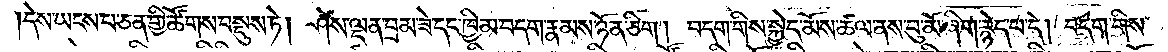།དེས་ཡངས་པ་ཅན་གྱི་ཚོགས་བསྡུས་ཏེ། ཤེས་ལྡན་བྲམ་ཟེ་དང་ཁྱིམ་བདག་རྣམས་ཉོན་ཅིག། བདག་གིས་སྐྱེད་མོས་ཚལ་ནས་བུ་མོ་ཞིག་རྙེད་པ་དེ། བདག་གིས་
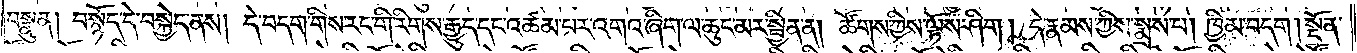བསྣུན། བསྙོད་དེ་བསྐྱེད་ནས། དེ་བདག་གིས་རང་གི་རིགས་རྒྱུད་དང་འཚམ་པར་འགའ་ཞིག་ལ་ཆུང་མར་སྦྱིན་ན། ཚོགས་ཀྱིས་ལྟོས་ཤིག། དེ་རྣམས་ཀྱིས་སྨྲས་པ། ཁྱིམ་བདག། སྔོན་
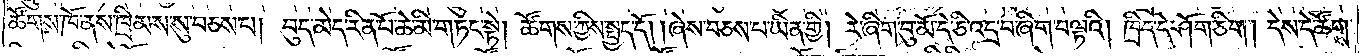ཚོགས་ཁོ་ནས་ཁྲིམས་སུ་བཅས་པ། བུད་མེད་རིན་པོ་ཆེ་མི་གཏང་སྟེ། ཚོགས་ཀྱིས་སྤྱད་དོ། །ཞེས་བཅས་པ་ཡིན་གྱི། རེ་ཞིག་བུ་མོ་དེ་ཅི་འདྲ་བ་ཞིག་བལྟའི། ཁྲིད་དེ་ཤོག་ཅིག། དེས་དེ་ཚོགས་
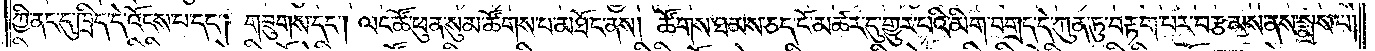ཀྱི་ནང་དུ་ཁྲིད་དེ་འོངས་པ་དང༌། གཟུགས་དང༌། ལང་ཚོ་ཕུན་སུམ་ཚོགས་པ་མཐོང་ནས། ཚོགས་ཐམས་ཅད་ངོ་མཚར་དུ་གྱུར་པའི་མིག་བགྲད་དེ་ཀུན་ཏུ་བརྟག་པར་བརྩམས་ནས་སྨྲས་པ།
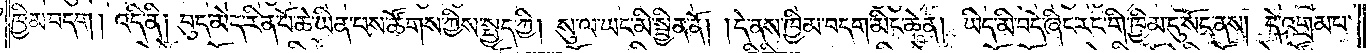ཁྱིམ་བདག། འདི་ནི། བུད་མེད་རིན་པོ་ཆེ་ཡིན་པས་ཚོགས་ཀྱིས་སྤྱད་ཀྱི། སུ་ལ་ཡང་མི་སྦྱིན་ནོ། །དེ་ནས་ཁྱིམ་བདག་མིང་ཆེན། ཡིད་མི་བདེ་ཞིང་རང་གི་ཁྱིམ་དུ་སོང་ནས། དེ་འགྲམ་པ་
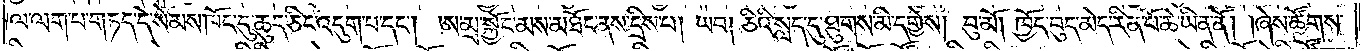ལ་ལག་པ་གཏད་དེ་སེམས་ཁོང་དུ་ཆུད་ཅིང་འདུག་པ་དང༌། ཨ་མྲ་སྐྱོང་མས་མཐོང་ནས་དྲིས་པ། ཡབ། ཅིའི་སླད་དུ་ཐུགས་མི་དགྱེས། བུ་མོ། ཁྱོད་བུད་མེད་རིན་པོ་ཆེ་ཡིན་ནོ། །ཞེས་ཚོགས་
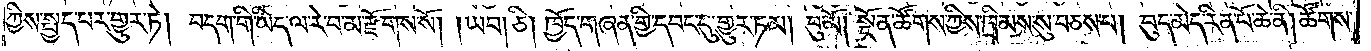ཀྱིས་སྤྱད་པར་གྱུར་ཏེ། བདག་གི་ཡིད་ལ་རེ་བ་མ་རྫོགས་སོ། །ཡབ། ཅི། ཁྱོད་གཞན་གྱི་དབང་དུ་གྱུར་ཏམ། བུ་མོ། སྔོན་ཚོགས་ཀྱིས་ཁྲིམས་སུ་བཅས་པ། བུད་མེད་རིན་པོ་ཆེ་ནི། ཚོགས་
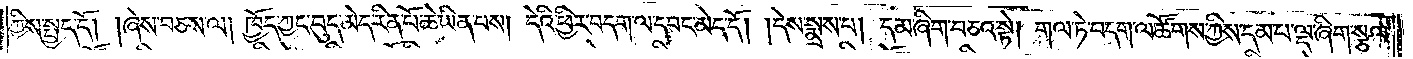ཀྱིས་སྤྱད་དོ། །ཞེས་བཅས་ལ། ཁྱོད་ཀྱང་བུད་མེད་རིན་པོ་ཆེ་ཡིན་པས། དེའི་ཕྱིར་བདག་ལ་དབང་མེད་དོ། །དེས་སྨྲས་པ། དམ་ཞིག་བཅའ་སྟེ། གལ་ཏེ་བདག་ལ་ཚོགས་ཀྱིས་དམ་པ་ལྔ་ཞིག་སྩལ་
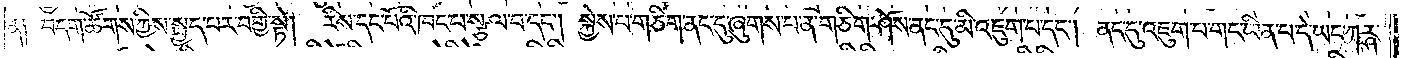ན༑ བདག་ཚོགས་ཀྱིས་སྤྱད་པར་བགྱི་སྟེ། རིས་དང་པོའི་ཁང་པ་སྩལ་བ་དང༌། སྐྱེས་པ་གཅིག་ནང་དུ་ཞུགས་པ་ན་གཅིག་ཤོས་ནང་དུ་མི་འཇུག་པ་དང༌། ནང་དུ་འཇུག་པ་གང་ཡིན་པ་དེ་ཡང་ཀརྴ་
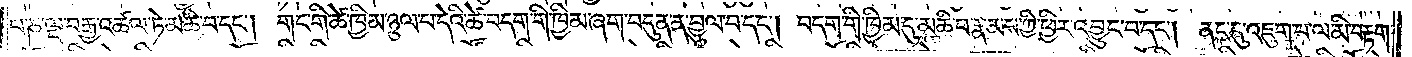པ་ཎ་ལྔ་བརྒྱ་འཚལ་ཏེ་མཆི་བ་དང༌། གང་གི་ཚེ་ཁྱིམ་ཉུལ་བ་དེའི་ཚེ་བདག་གི་ཁྱིམ་ཞག་བདུན་ན་བྱུལ་བ་དང༌། བདག་གི་ཁྱིམ་དུ་མཆི་བ་རྣམས་ཀྱི་ཕྱིར་འབྱུང་བ་དང༌། ནང་དུ་འཇུག་པ་ལ་མི་བརྟག་
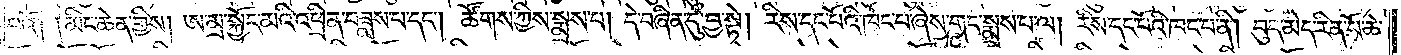པའོ། །མིང་ཆེན་གྱིས། ཨ་མྲ་སྐྱོང་མའི་འཕྲིན་བཟླས་པ་དང༌། ཚོགས་ཀྱིས་སྨྲས་པ། དེ་བཞིན་དུ་བྱ་སྟེ། རིས་དང་པོའི་ཁང་པ་ཞེས་གང་སྨྲས་པ་ལ། རིས་དང་པོའི་ཁང་པ་ནི། བུད་མེད་རིན་པོ་ཆེ་
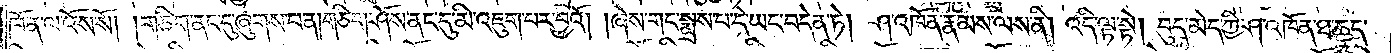ཁོ་ན་ལ་འོས་སོ། །གཅིག་ནང་དུ་ཞུགས་པ་ན། གཅིག་ཤོས་ནང་དུ་མི་འཇུག་པར་བྱའོ། །ཞེས་གང་སྨྲས་པ་དེ་ཡང་བདེན་ཏེ། ཤ་འཁོན་རྣམས་ལས་ནི། འདི་ལྟ་སྟེ། བུད་མེད་ཀྱི་ཤ་འཁོན་ཐ་ཆད་
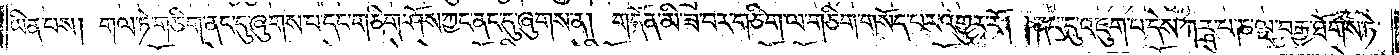ཡིན་པས། གལ་ཏེ་གཅིག་ནང་དུ་ཞུགས་པ་དང་གཅིག་ཤོས་ཀྱང་ནང་དུ་ཞུགས་ན། གདོན་མི་ཟ་བར་གཅིག་ལ་གཅིག་གསོད་པར་འགྱུར་རོ། །ནང་དུ་འཇུག་པ་དེས་ཀརྴ་པ་ཎ་ལྔ་བརྒྱ་ཐོགས་ཏེ་
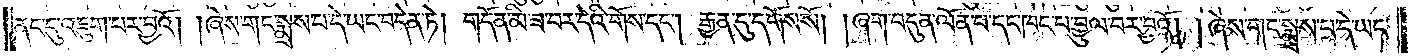ནང་དུ་འཇུག་པར་བྱའོ། །ཞེས་གང་སྨྲས་པ་དེ་ཡང་བདེན་ཏེ། གདོན་མི་ཟ་བར་དེའི་གོས་དང༌། རྒྱན་དུ་དགོས་སོ། །ཞག་བདུན་ལོན་པ་དང་ཁང་པ་བྱུལ་བར་བྱའོ། །ཞེས་གང་སྨྲས་པ་དེ་ཡང་
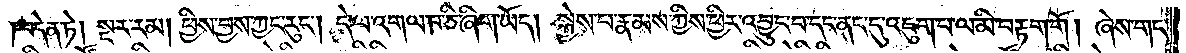བདེན་ཏེ། སྔར་རམ། ཕྱིས་བྱས་ཀྱང་རུང༌། དེ་ལ་འགལ་བ་ཅི་ཞིག་ཡོད། སྐྱེས་པ་རྣམས་ཀྱིས་ཕྱིར་འབྱུང་བ་དང་ནང་དུ་འཇུག་པ་ལ་མི་བརྟག་གོ། ཞེས་གང་
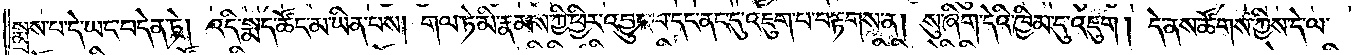སྨྲས་པ་དེ་ཡང་བདེན་ཏེ། འདི་སྨད་ཚོང་མ་ཡིན་པས། གལ་ཏེ་མི་རྣམས་ཀྱི་ཕྱིར་འབྱུང་བ་དང་ནང་དུ་འཇུག་པ་བརྟགས་ན། སུ་ཞིག་དེའི་ཁྱིམ་དུ་འཇུག། དེ་ནས་ཚོགས་ཀྱིས་དེ་ལ་
